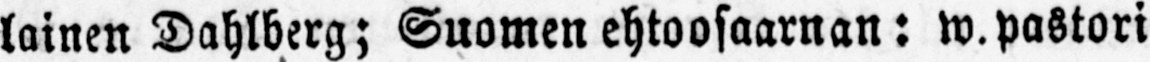lainen Dahlberg; Suomen ehtoosaarnan: w. pastori
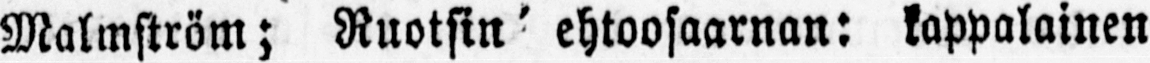Malmström; Ruotsin ehtoosaarnan: kappalainen
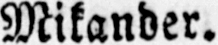Mikander.
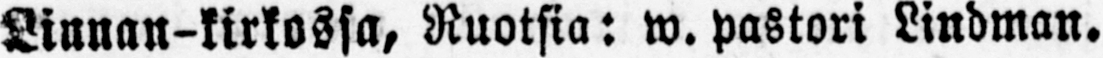Linnan-kirkossa, Ruotsia: w. pastori Lindman.
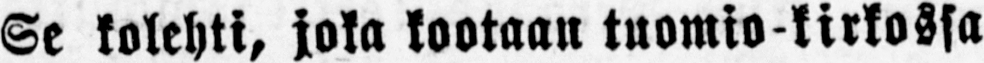Se kolehti, joka kootaan tuomio kirkossa
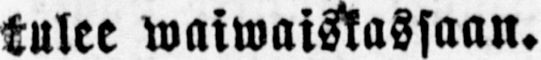Lukee waiwaiskassaan.
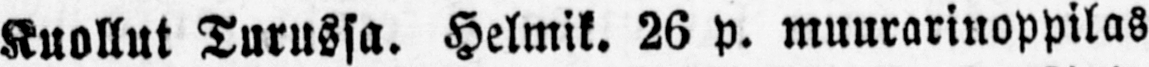Kuollut Turussa. Helmik. 26 p. muurarinoppilas
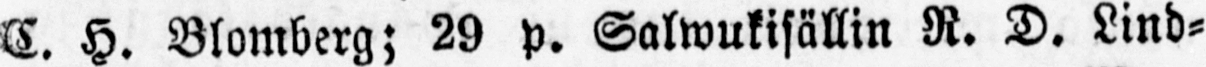C. H. Blomberg; 29 p. Salwukisällin R. D. Lind-
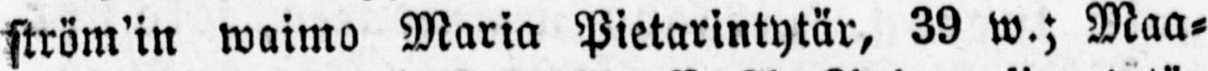ström’in waimo Maria Pietarintytär, 39 w.; Maa-
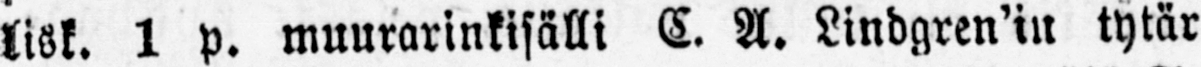lisk. 1 p. muurarinkisälli C. A. Lindgren’in tytär
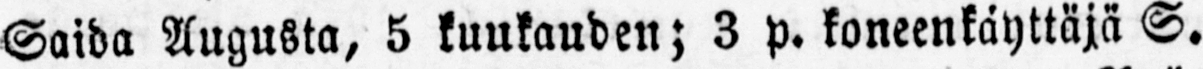Saida Augusta, 5 kuukauden; 3 p. koneenkäyttäjä S.
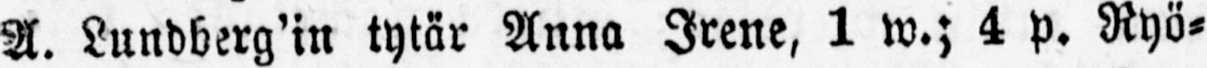A. Lundberg’in tytär Anna Irene, 1 w.; 4 p. Ryö-
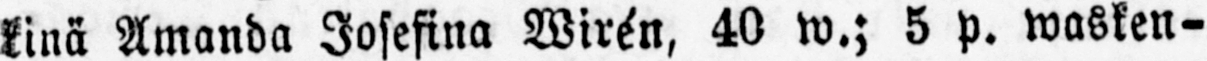kinä Amanda Josefina Wiré n, 40 w.; 5 p. wasken-
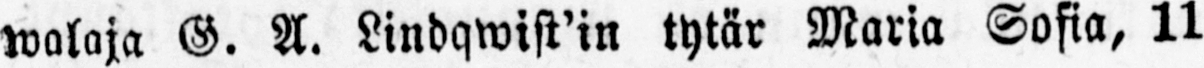walaja G. A. Lindqwist'in tytär Maria Sofia, 11
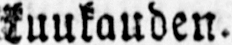kuukauden.
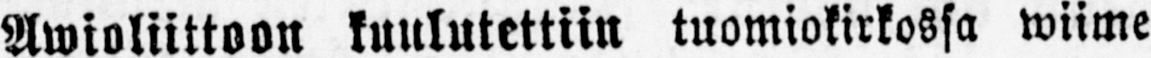Awioliittoon kuulutettiin tuomiokirkossa wiime
